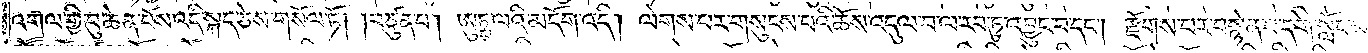འགལ་གྱི་བུ་ཆེན་པོས་འདི་སྐད་ཅེས་གསོལ་ཏོ། །བཙུན་པ། ཨུཏྤ་ལའི་མདོག་འདི། ལེགས་པར་གསུངས་པའི་ཆོས་འདུལ་བ་ལ་རབ་ཏུ་འབྱུང་བ་དང༌། རྫོགས་པར་བསྙེན་པ་དགེ་སློང་
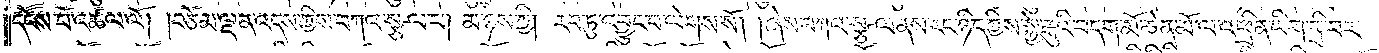དངོས་པོ་འཚལ་ལོ། །བཅོམ་ལྡན་འདས་ཀྱིས་བཀའ་སྩལ་པ། མ་ཉེས་ཀྱི། རབ་ཏུ་འབྱུང་བ་ལེགས་སོ། །ཞེས་བཀའ་སྩལ་ནས་རང་ཉིད་ཀྱིས་སྐྱེ་རྒུའི་བདག་མོ་ཆེན་མོ་ལ་འཕྲིན་ཡིག་བྲི་བར་
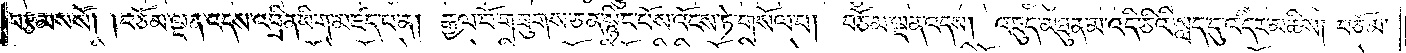བརྩམས་སོ། །བཅོམ་ལྡན་འདས་འཕྲིན་ཡིག་མཛད་པ་ན། རྒྱལ་པོ་གཟུགས་ཅན་སྙིང་པོས་འོངས་ཏེ་གསོལ་བ། བཅོམ་ལྡན་འདས། འཇུད་མཐུན་མ་འདི་ཅིའི་སླད་དུ་འདིར་མཆིས། བཅོམ་
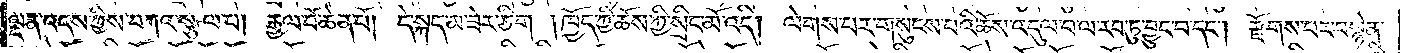ལྡན་འདས་ཀྱིས་བཀའ་སྩལ་པ། རྒྱལ་པོ་ཆེན་པོ། དེ་སྐད་མ་ཟེར་ཅིག །ཁྱོད་ཀྱི་ཆོས་ཀྱི་སྲིང་མོ་འདི། ལེགས་པར་གསུངས་པའི་ཆོས་འདུལ་བ་ལ་རབ་ཏུ་བྱུང་བ་དང༌། རྫོགས་པར་བསྙེན་
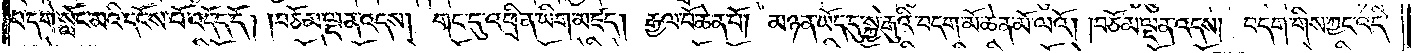པ་དགེ་སློང་མའི་དངོས་པོ་འདོད་དོ། །བཅོམ་ལྡན་འདས། གང་དུ་འཕྲིན་ཡིག་མཛད། རྒྱལ་པོ་ཆེན་པོ། མཉན་ཡོད་དུ་སྐྱེ་རྒུའི་བདག་མོ་ཆེན་མོ་ལའོ། །བཅོམ་ལྡན་འདས། བདག་གིས་ཀྱང་འདི་
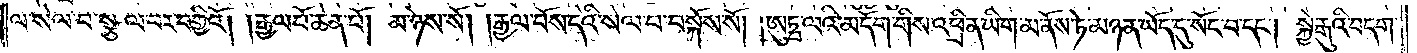ལ་སེལ་བ་སྩལ་བར་བགྱིའོ། །རྒྱལ་པོ་ཆེན་པོ། མ་ཉེས་སོ། །རྒྱལ་པོས་དེའི་སེལ་བ་བསྐོས་སོ། །ཨུཏྤ་ལའི་མདོག་གིས་འཕྲིན་ཡིག་མ་ནོས་ཏེ་མཉན་ཡོད་དུ་སོང་བ་དང༌། སྐྱེ་རྒུའི་བདག་
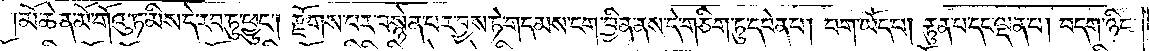།མོ་ཆེན་མོ་གོའུ་ཏ་མིས་དེ་རབ་ཏུ་ཕྱུང༌། རྫོགས་པར་བསྙེན་པར་བྱས་ཏེ་གདམས་ངག་བྱིན་ནས་དེ་གཅིག་ཏུ་དབེན་པ། བག་ཡོད་པ། རྟུན་པ་དང་ལྡན་པ། བདག་ཉིད་
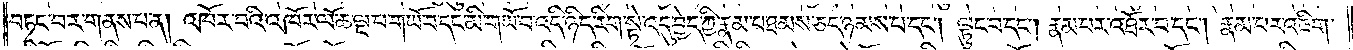བཏང་བར་གནས་པ་ན། འཁོར་བའི་འཁོར་ལོ་ཆ་ལྔ་པ་གཡོ་བ་དང་མི་གཡོ་བ་འདི་ཉིད་རིག་སྟེ་འདུ་བྱེད་ཀྱི་རྣམ་པ་ཐམས་ཅད་ཉམས་པ་དང༌། ལྟུང་བ་དང༌། རྣམ་པར་འཐོར་བ་དང༌། རྣམ་པར་འཇིག་
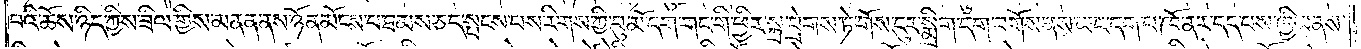པའི་ཆོས་ཉིད་ཀྱིས་ཟིལ་གྱིས་མནན་ནས་ཉོན་མོངས་པ་ཐམས་ཅད་སྤངས་པས་རིགས་ཀྱི་བུ་མོ་དག་གང་གི་ཕྱིར་སྐྲ་བྲེགས་ཏེ་གོས་ངུར་སྨྲིག་དག་བགོས་ནས་ཡང་དག་པ་ཁོ་ནར་དད་པས་ཁྱིམ་ནས་
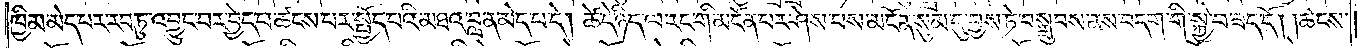ཁྱིམ་མེད་པར་རབ་ཏུ་འབྱུང་བར་བྱེད་པ་ཚངས་པར་སྤྱོད་པའི་མཐའ་བླ་ན་མེད་པ་དེ། ཚེ་དེ་ཉིད་ལ་རང་གི་མངོན་པར་ཤེས་པས་མངོན་སུམ་དུ་བྱས་ཏེ་བསྒྲུབས་ནས་བདག་གི་སྐྱེ་བ་ཟད་དོ། །ཚངས་
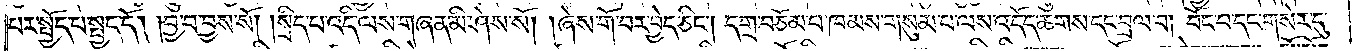པར་སྤྱོད་པ་སྤྱད་དོ། །བྱ་བ་བྱས་སོ། །སྲིད་པ་འདི་ལས་གཞན་མི་ཤེས་སོ། །ཞེས་གོ་བར་བྱེད་ཅིང༌། དགྲ་བཅོམ་པ་ཁམས་གསུམ་པ་ལས་འདོད་ཆགས་དང་བྲལ་བ། བོང་བ་དང་གསེར་དུ་
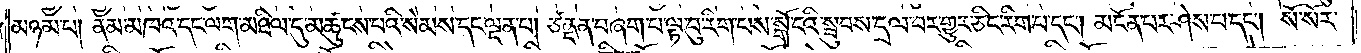མཉམ་པ། ནམ་མཁའ་དང་ལག་མཐིལ་དུ་མཚུངས་པའི་སེམས་དང་ལྡན་པ། ཙནྡན་བཞག་པ་ལྟ་བུ་རིག་པས་སྒོ་ངའི་སྦུབས་དྲལ་བར་གྱུར་ཅིང་རིག་པ་དང༌། མངོན་པར་ཤེས་པ་དང༌། སོ་སོར་
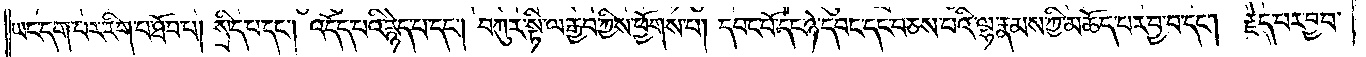ཡང་དག་པར་རིག་པ་ཐོབ་པ། སྲིད་པ་དང༌། འདོད་པའི་རྙེད་པ་དང༌། བཀུར་སྟི་ལ་རྒྱབ་ཀྱིས་ཕྱོགས་པ། དབང་པོ་དང་ཉེ་དབང་དང་བཅས་པའི་ལྷ་རྣམས་ཀྱི་མཆོད་པར་བྱ་བ་དང༌། རྗེད་པར་བྱ་བ་
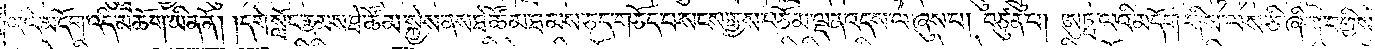ལའི་མདོག་འདི་མཆོག་ཡིན་ནོ། །དགེ་སློང་རྣམས་ཐེ་ཚོམ་སྐྱེས་ནས་ཐེ་ཚོམ་ཐམས་ཅད་གཅོད་པ་སངས་རྒྱས་བཅོམ་ལྡན་འདས་ལ་ཞུས་པ། བཙུན་པ། ཨུཏྤ་ལའི་མདོག་གིས་ལས་ཅི་ཞིག་བགྱིས་
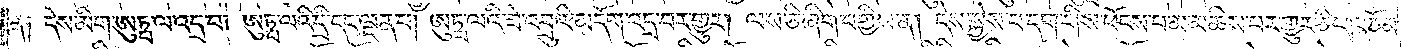ན། དེས་མིག་ཨུཏྤ་ལ་འདྲ་བ། ཨུཏྤ་ལའི་དྲི་དང་ལྡན་པ། ཨུཏྤ་ལའི་ཟེ་འབྲུའི་མདོག་འདྲ་བར་གྱུར། ལས་ཅི་ཞིག་བགྱིས་ན། དེས་སྐྱེས་པ་དག་གིས་ཕོངས་པ་མ་མཆིས་པར་གྱུར་ཅིང༌། བཅོམ་
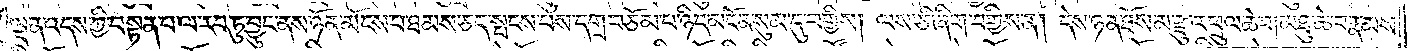ལྡན་འདས་ཀྱིས་བསྟན་པ་ལ་རབ་ཏུ་བྱུང་ནས་ཉོན་མོངས་པ་ཐམས་ཅད་སྤངས་པས་དགྲ་བཅོམ་པ་ཉིད་མངོན་སུམ་དུ་བགྱིས། ལས་ཅི་ཞིག་བགྱིས་ན། དེས་ཉན་ཐོས་མ་རྫུ་འཕྲུལ་ཆེ་བ། མཐུ་ཆེ་བ་རྣམས་
